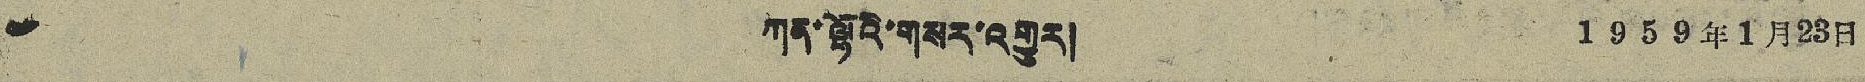༤ ཀན་ལྷོའི་གསར་འགྱུར། 1959年1月23日
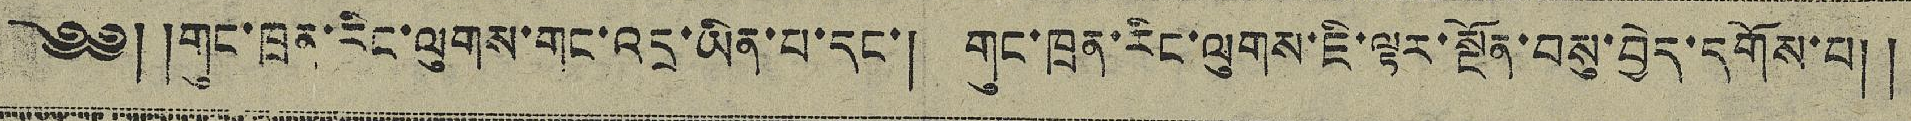༄༅། །གུང་ཁྲན་རིང་ལུགས་གང་འདྲ་ཡིན་པ་དང་། གུང་ཁྲན་རིང་ལུགས་ཇི་ལྟར་སྔོན་བསུ་བྱེད་དགོས་པ། །
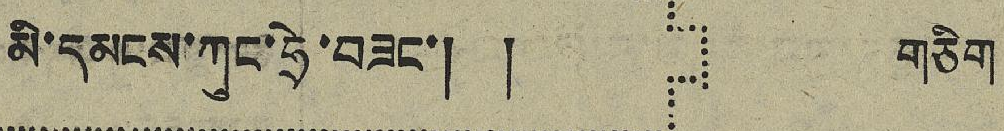མི་དམངས་ཀུང་ཧྲེ་བཟང་། ། གཅིག
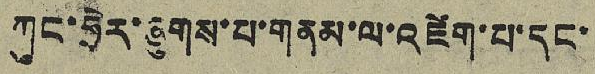ཀུང་ཧྲེར་ཞུགས་པ་གནམ་ལ་འཛེག་པ་དང་
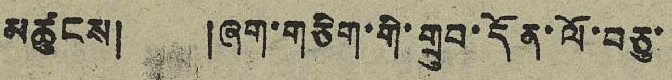མཚུངས། །ཞག་གཅིག་གི་གྲུབ་དོན་ལོ་བཅུ་
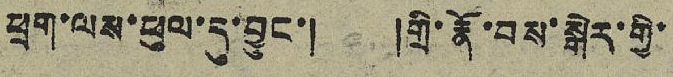ཕྲག་ལས་ཕུལ་དུ་བྱུང་། །གྲི་རྣོ་བས་སྒེར་གྱི་
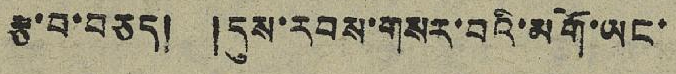རྩ་བ་བཅད། །དུས་རབས་གསར་བའི་མགོ་ཡང་
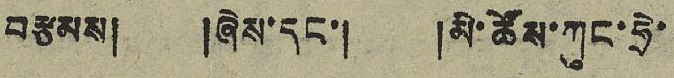བརྩམས། །ཞེས་དང་། མི་ཚོས་ཀུང་ཧྲེ་
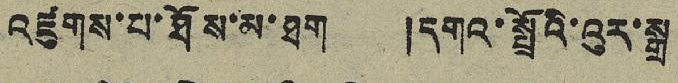འཛུགས་པ་ཐོས་མ་ཐག །དགའ་སྤྲོའི་འུར་སྒྲ
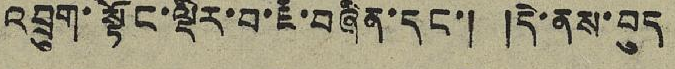འབྲུག་སྟོང་ལྡིར་བ་ཇི་བཞིན་དང་། །དེ་ནས་བུད
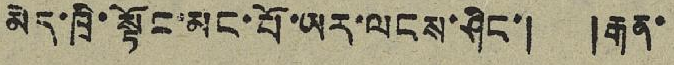མེད་ཁྲི་སྟོང་མང་པོ་ཡར་ལངས་ཤིང་། །རྒན་
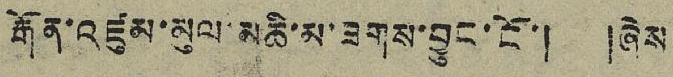རྒོན་འཛུམ་མུལ་མཆི་མ་ཟགས་བྱུང་ངོ་། །ཞེས
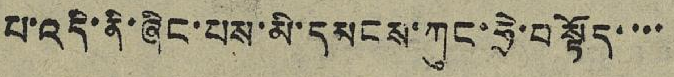པ་འདི་ནི་ཞིང་པས་མི་དམངས་ཀུང་ཧྲེ་བསྟོད་་་་
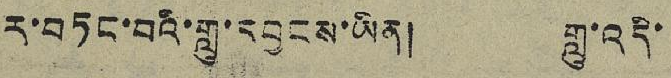ར་བཏང་བའི་གླུ་དབྱངས་ཡིན། གླུ་འདི་
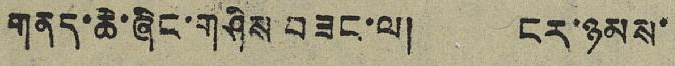གནད་ཆེ་ཞིང་གཤིས་བཟང་ལ། ངར་ཉམས་
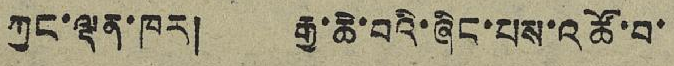ཀྱང་ལྡན་ཁར། རྒྱ་ཆེ་བའི་ཞིང་པས་འཚོ་བ་
